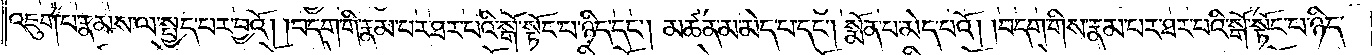འཇུག་པ་རྣམས་ལ་སྤྱད་པར་བྱའོ། །བདག་གི་རྣམ་པར་ཐར་པའི་སྒོ་སྟོང་པ་ཉིད་དང༌། མཚན་མ་མེད་པ་དང༌། སྨོན་པ་མེད་པའོ། །བདག་གིས་རྣམ་པར་ཐར་པའི་སྒོ་སྟོང་པ་ཉིད་
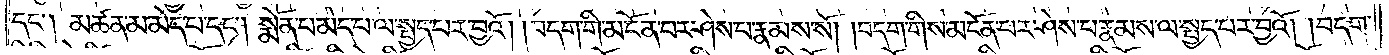དང༌། མཚན་མ་མེད་པ་དང༌། སྨོན་པ་མེད་པ་ལ་སྤྱད་པར་བྱའོ། །བདག་གི་མངོན་པར་ཤེས་པ་རྣམས་སོ། །བདག་གིས་མངོན་པར་ཤེས་པ་རྣམས་ལ་སྤྱད་པར་བྱའོ། །བདག་
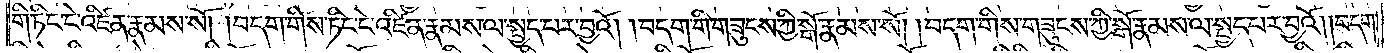གི་ཏིང་ངེ་འཛིན་རྣམས་སོ། །བདག་གིས་ཏིང་ངེ་འཛིན་རྣམས་ལ་སྤྱད་པར་བྱའོ། །བདག་གི་གཟུངས་ཀྱི་སྒོ་རྣམས་སོ། །བདག་གིས་གཟུངས་ཀྱི་སྒོ་རྣམས་ལ་སྤྱད་པར་བྱའོ། །བདག་
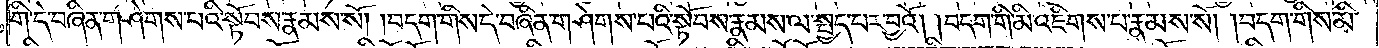གི་དེ་བཞིན་གཤེགས་པའི་སྟོབས་རྣམས་སོ། །བདག་གིས་དེ་བཞིན་གཤེགས་པའི་སྟོབས་རྣམས་ལ་སྤྱད་པར་བྱའོ། །བདག་གི་མི་འཇིགས་པ་རྣམས་སོ། །བདག་གིས་མི་
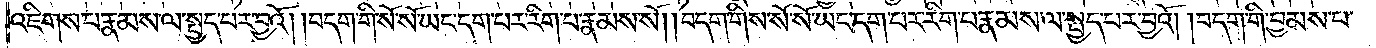འཇིགས་པ་རྣམས་ལ་སྤྱད་པར་བྱའོ། །བདག་གི་སོ་སོ་ཡང་དག་པར་རིག་པ་རྣམས་སོ། །བདག་གིས་སོ་སོ་ཡང་དག་པར་རིག་པ་རྣམས་ལ་སྤྱད་པར་བྱའོ། །བདག་གི་བྱམས་པ་
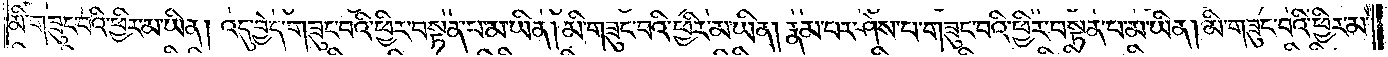མི་གཟུང་བའི་ཕྱིར་མ་ཡིན། འདུ་བྱེད་གཟུང་བའི་ཕྱིར་བསྟན་པ་མ་ཡིན། མི་གཟུང་བའི་ཕྱིར་མ་ཡིན། རྣམ་པར་ཤེས་པ་གཟུང་བའི་ཕྱིར་བསྟན་པ་མ་ཡིན། མི་གཟུང་བའི་ཕྱིར་མ་
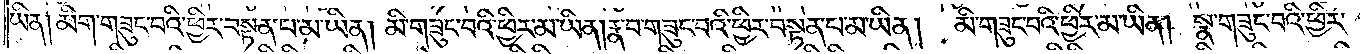ཡིན། མིག་གཟུང་བའི་ཕྱིར་བསྟན་པ་མ་ཡིན། མི་གཟུང་བའི་ཕྱིར་མ་ཡིན། རྣ་བ་གཟུང་བའི་ཕྱིར་བསྟན་པ་མ་ཡིན། མི་གཟུང་བའི་ཕྱིར་མ་ཡིན། སྣ་གཟུང་བའི་ཕྱིར་
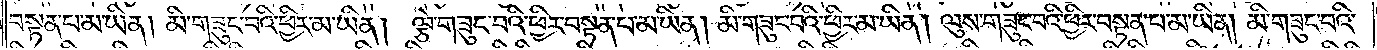བསྟན་པ་མ་ཡིན། མི་གཟུང་བའི་ཕྱིར་མ་ཡིན། ལྕེ་གཟུང་བའི་ཕྱིར་བསྟན་པ་མ་ཡིན། མི་གཟུང་བའི་ཕྱིར་མ་ཡིན། ལུས་གཟུང་བའི་ཕྱིར་བསྟན་པ་མ་ཡིན། མི་གཟུང་བའི་
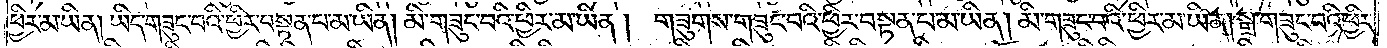ཕྱིར་མ་ཡིན། ཡིད་གཟུང་བའི་ཕྱིར་བསྟན་པ་མ་ཡིན། མི་གཟུང་བའི་ཕྱིར་མ་ཡིན། གཟུགས་གཟུང་བའི་ཕྱིར་བསྟན་པ་མ་ཡིན། མི་གཟུང་བའི་ཕྱིར་མ་ཡིན། སྒྲ་གཟུང་བའི་ཕྱིར་
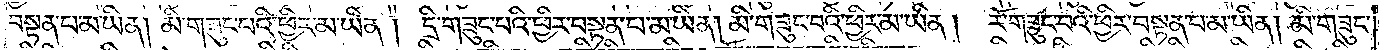བསྟན་པ་མ་ཡིན། མི་གཟུང་བའི་ཕྱིར་མ་ཡིན། དྲི་གཟུང་བའི་ཕྱིར་བསྟན་པ་མ་ཡིན། མི་གཟུང་བའི་ཕྱིར་མ་ཡིན། རོ་གཟུང་བའི་ཕྱིར་བསྟན་པ་མ་ཡིན། མི་གཟུང་
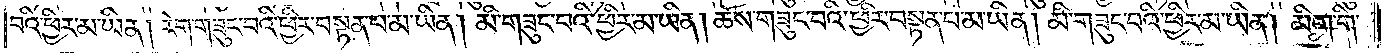བའི་ཕྱིར་མ་ཡིན། རེག་གཟུང་བའི་ཕྱིར་བསྟན་པ་མ་ཡིན། མི་གཟུང་བའི་ཕྱིར་མ་ཡིན། ཆོས་གཟུང་བའི་ཕྱིར་བསྟན་པ་མ་ཡིན། མི་གཟུང་བའི་ཕྱིར་མ་ཡིན། མིག་གི་
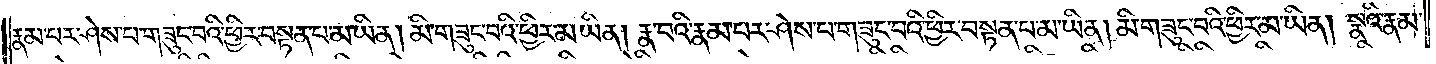རྣམ་པར་ཤེས་པ་གཟུང་བའི་ཕྱིར་བསྟན་པ་མ་ཡིན། མི་གཟུང་བའི་ཕྱིར་མ་ཡིན། རྣ་བའི་རྣམ་པར་ཤེས་པ་གཟུང་བའི་ཕྱིར་བསྟན་པ་མ་ཡིན། མི་གཟུང་བའི་ཕྱིར་མ་ཡིན། སྣའི་རྣམ་
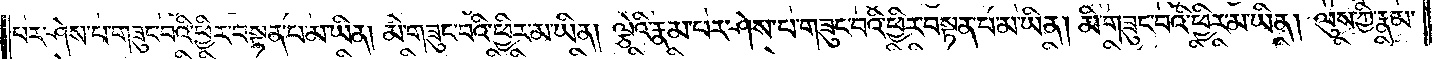པར་ཤེས་པ་གཟུང་བའི་ཕྱིར་བསྟན་པ་མ་ཡིན། མི་གཟུང་བའི་ཕྱིར་མ་ཡིན། ལྕེའི་རྣམ་པར་ཤེས་པ་གཟུང་བའི་ཕྱིར་བསྟན་པ་མ་ཡིན། མི་གཟུང་བའི་ཕྱིར་མ་ཡིན། ལུས་ཀྱི་རྣམ་
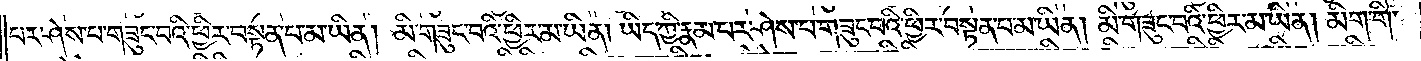པར་ཤེས་པ་གཟུང་བའི་ཕྱིར་བསྟན་པ་མ་ཡིན། མི་གཟུང་བའི་ཕྱིར་མ་ཡིན། ཡིད་ཀྱི་རྣམ་པར་ཤེས་པ་གཟུང་བའི་ཕྱིར་བསྟན་པ་མ་ཡིན། མི་གཟུང་བའི་ཕྱིར་མ་ཡིན། མིག་གི་
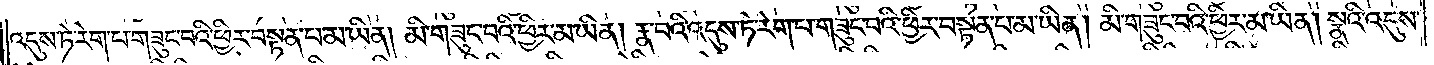འདུས་ཏེ་རེག་པ་གཟུང་བའི་ཕྱིར་བསྟན་པ་མ་ཡིན། མི་གཟུང་བའི་ཕྱིར་མ་ཡིན། རྣ་བའི་འདུས་ཏེ་རེག་པ་གཟུང་བའི་ཕྱིར་བསྟན་པ་མ་ཡིན། མི་གཟུང་བའི་ཕྱིར་མ་ཡིན། མི་གཟུང་པའི་ཕྱིར་མ་ཡིན། སྣའི་འདུས་
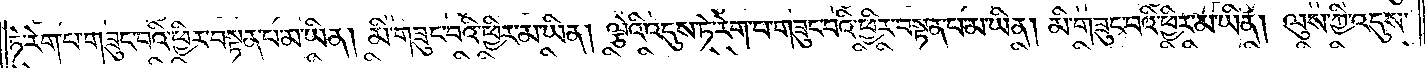ཏེ་རེག་པ་གཟུང་བའི་ཕྱིར་བསྟན་པ་མ་ཡིན། མི་གཟུང་བའི་ཕྱིར་མ་ཡིན། ལྕེའི་འདུས་ཏེ་རེག་པ་གཟུང་བའི་ཕྱིར་བསྟན་པ་མ་ཡིན། མི་གཟུང་བའི་ཕྱིར་མ་ཡིན། ལུས་ཀྱི་འདུས་
